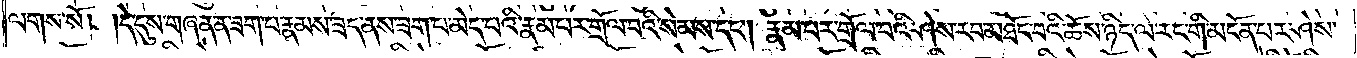ལགས་སོ། །དེ་དུས་གཞན་ན་ཟག་པ་རྣམས་ཟད་ནས་ཟག་པ་མེད་པའི་རྣམ་པར་གྲོལ་བའི་སེམས་དང༌། རྣམ་པར་གྲོལ་བའི་ཤེས་རབ་མཐོང་བའི་ཆོས་ཉིད་ལ་རང་གི་མངོན་པར་ཤེས་
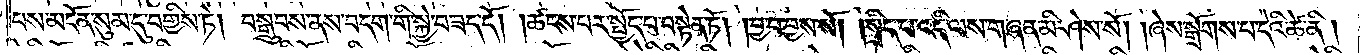པས་མངོན་སུམ་དུ་བགྱིས་ཏེ། བསྒྲུབས་ནས་བདག་གི་སྐྱེ་བ་ཟད་དོ། །ཚངས་པར་སྤྱོད་པ་བསྟེན་ཏོ། །བྱ་བ་བྱས་སོ། །སྲིད་པ་འདི་ལས་གཞན་མི་ཤེས་སོ། །ཞེས་སྒྲོགས་པ་དེའི་ཚེ་ནི།
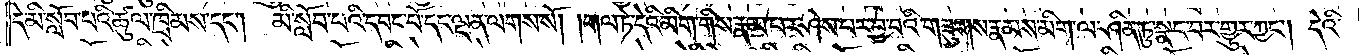དེ་མི་སློབ་པའི་ཚུལ་ཁྲིམས་དང༌། མི་སློབ་པའི་དབང་པོ་དང་ལྡན་ལགས་སོ། །གལ་ཏེ་དེའི་མིག་གིས་རྣམ་པར་ཤེས་པར་བྱ་བའི་གཟུགས་རྣམས་མིག་ལ་ཤིན་ཏུ་སྣང་བར་གྱུར་ཀྱང༌། དེའི་
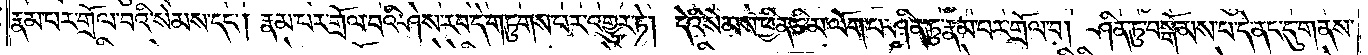རྣམ་པར་གྲོལ་བའི་སེམས་དང༌། རྣམ་པར་གྲོལ་བའི་ཤེས་རབ་དེ་གཏུགས་པར་འགྱུར་ཏེ། དེའི་སེམས་ཕྱིན་ཅི་མ་ལོག་པ་ཤིན་ཏུ་རྣམ་པར་གྲོལ་པ། ཤིན་ཏུ་བསྒོམས་པ་དེ་ནང་དུ་གནས་
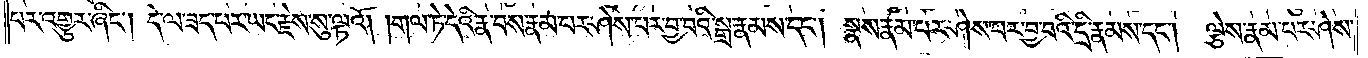པར་འགྱུར་ཞིང༌། དེ་ལ་ཟད་པར་ཡང་རྗེས་སུ་ལྟའོ། །གལ་ཏེ་དེའི་རྣ་བས་རྣམ་པར་ཤེས་པར་བྱ་བའི་སྒྲ་རྣམས་དང༌། སྣས་རྣམ་པར་ཤེས་པར་བྱ་བའི་དྲི་རྣམས་དང༌། ལྕེས་རྣམ་པར་ཤེས་
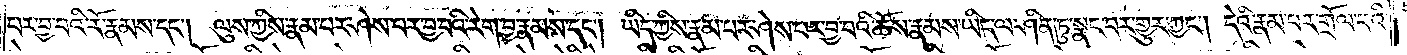པར་བྱ་བའི་རོ་རྣམས་དང༌། ལུས་ཀྱིས་རྣམ་པར་ཤེས་པར་བྱ་བའི་རེག་བྱ་རྣམས་དང༌། ཡིད་ཀྱིས་རྣམ་པར་ཤེས་པར་བྱ་བའི་ཆོས་རྣམས་ཡིད་ལ་ཤིན་ཏུ་སྣང་བར་གྱུར་ཀྱང༌། དེའི་རྣམ་པར་གྲོལ་བའི་
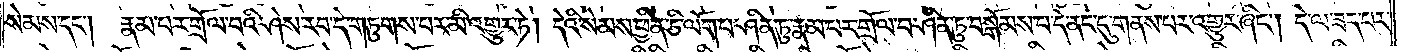སེམས་དང༌། རྣམ་པར་གྲོལ་བའི་ཤེས་རབ་དེ་གཏུགས་པར་མི་འགྱུར་ཏེ། དེའི་སེམས་ཕྱིན་ཅི་ལོག་པ་ཤིན་ཏུ་རྣམ་པར་གྲོལ་བ་ཤིན་ཏུ་བསྒོམས་པ་དེ་ནང་དུ་གནས་པར་འགྱུར་ཞིང༌། དེ་ལ་ཟད་པར་
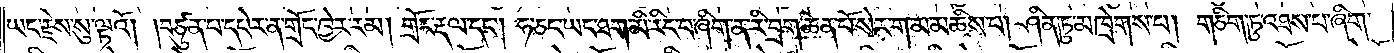ཡང་རྗེས་སུ་ལྟའོ། །བཙུན་པ་དཔེར་ན་གྲོང་ཁྱེར་རམ། གྲོང་རྡལ་དང༌། ཧ་ཅང་ཡང་ཐག་མི་རིང་བ་ཞིག་ན་རི་བྲག་ཆེན་པོ་སེར་ག་མ་མཆིས་པ། ཤིན་ཏུ་མཁྲེགས་པ། གཅིག་ཏུ་འཐས་པ་ཞིག་
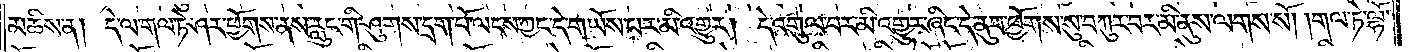མཆིས་ན། དེ་ལ་གལ་ཏེ་ཤར་ཕྱོགས་ནས་རླུང་གི་ཤུགས་དྲག་པོ་ལངས་ཀྱང་དེ་གཡོས་པར་མི་འགྱུར། དེ་འགུལ་བར་མི་འགྱུར་ཞིང་དེ་ནུབ་ཕྱོགས་སུ་བཀུར་བར་མི་ནུས་ལགས་སོ། །གལ་ཏེ་ལྷོ་
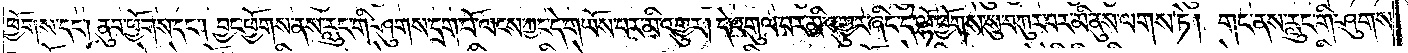ཕྱོགས་དང༌། ནུབ་ཕྱོགས་དང༌། བྱང་ཕྱོགས་ནས་རླུང་གི་ཤུགས་དྲག་པོ་ལངས་ཀྱང་དེ་གཡོས་པར་མི་འགྱུར། དེ་འགུལ་བར་མི་འགྱུར་ཞིང་དེ་ལྷོ་ཕྱོགས་སུ་བཀུར་བར་མི་ནུས་ལགས་ཏེ། གང་ནས་རླུང་གི་ཤུགས་
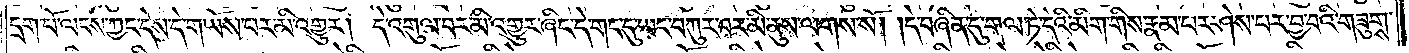དྲག་པོ་ལངས་ཀྱང་དེས་དེ་གཡོས་པར་མི་འགྱུར། དེ་འགུལ་བར་མི་འགྱུར་ཞིང་དེ་གང་དུ་ཡང་བཀུར་བར་མི་ནུས་ལགས་སོ། །དེ་བཞིན་དུ་གལ་ཏེ་དེའི་མིག་གིས་རྣམ་པར་ཤེས་པར་བྱ་བའི་གཟུགས་
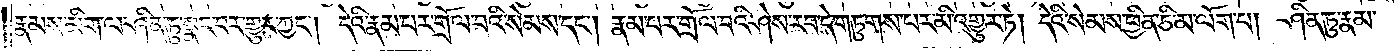རྣམས་མིག་ལ་ཤིན་ཏུ་སྣང་བར་གྱུར་ཀྱང༌། དེའི་རྣམ་པར་གྲོལ་བའི་སེམས་དང༌། རྣམ་པར་གྲོལ་བའི་ཤེས་རབ་དེ་གཏུགས་པར་མི་འགྱུར་ཏེ། དེའི་སེམས་ཕྱིན་ཅི་མ་ལོག་པ། ཤིན་ཏུ་རྣམ་
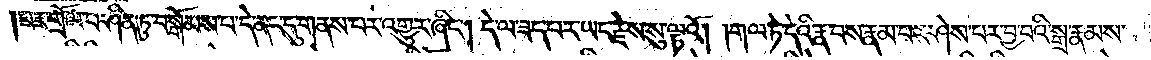པར་གྲོལ་བ་ཤིན་ཏུ་བསྒོམས་པ་དེ་ནང་དུ་གནས་པར་འགྱུར་ཞིང༌། དེ་ལ་ཟད་པར་ཡང་རྗེས་སུ་ལྟའོ། །གལ་ཏེ་དེའི་རྣ་བས་རྣམ་པར་ཤེས་པར་བྱ་བའི་སྒྲ་རྣམས་
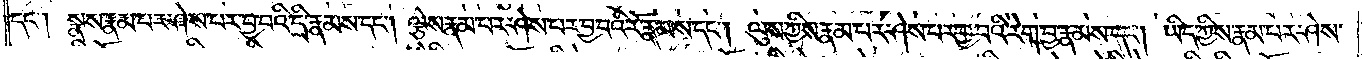དང༌། སྣས་རྣམ་པར་ཤེས་པར་བྱ་བའི་དྲི་རྣམས་དང༌། ལྕེས་རྣམ་པར་ཤེས་པར་བྱ་བའི་རོ་རྣམས་དང༌། ལུས་ཀྱིས་རྣམ་པར་ཤེས་པར་བྱ་བའི་རེག་བྱ་རྣམས་དང༌། ཡིད་ཀྱིས་རྣམ་པར་ཤེས་
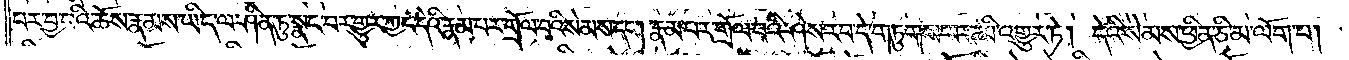པར་བྱ་བའི་ཆོས་རྣམས་ཡིད་ལ་ཤིན་ཏུ་སྣང་བར་གྱུར་ཀྱང་དེའི་རྣམ་པར་གྲོལ་བའི་སེམས་དང༌། རྣམ་པར་གྲོལ་བའི་ཤེས་རབ་དེ་གཏུགས་པར་མི་འགྱུར་ཏེ། དེའི་སེམས་ཕྱིན་ཅི་མ་ལོག་པ།
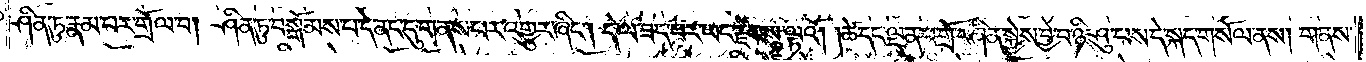ཤིན་ཏུ་རྣམ་པར་གྲོལ་བ། ཤིན་ཏུ་བསྒོམས་པ་དེ་ནང་དུ་གནས་པར་འགྱུར་ཞིང༌། དེ་ལ་ཟད་པར་ཡང་རྗེས་སུ་ལྟའོ། །ཚེ་དང་ལྡན་པ་གྲོ་བཞིན་སྐྱེས་བྱེ་པ་ཉི་ཤུ་པས་དེ་སྐད་གསོལ་ནས། གནས་
